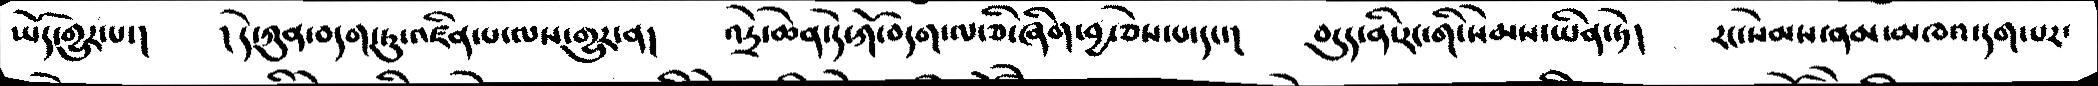ཡོད་གྱུར་པ་།    །དེ་ཀུན་བདག་ཏུ་འཛིན་པ་ལས་གྱུར་ན།    འདྲེ་ཆེན་དེ་ཀོ་བདག་ལ་ཅི་ཞིག་བྱ་ཅེས་པ་དང་།    བདུད་ནི་རང་གི་སེམས་ཡིན་ཏེ།    རང་སེམས་ནམ་མཁའ་དག་པར་
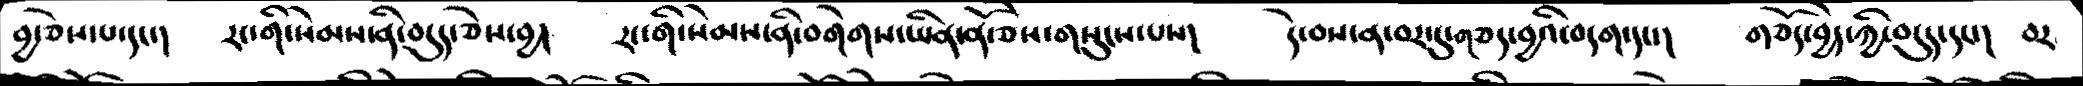བྱ་ཅེས་པ་དང་།    རང་གི་སེམས་ནི་བདུད་ཅེས་བྱ།    རང་གི་སེམས་ནི་བགེགས་ཡིན་ནོ་ཅེས་གསུངས་པས།    དེ་བས་ན་བར་དུ་གཅད་བྱའི་བདག་དང་།    གཅོད་བྱེད་ཀྱི་བདུད་དང་།    བར
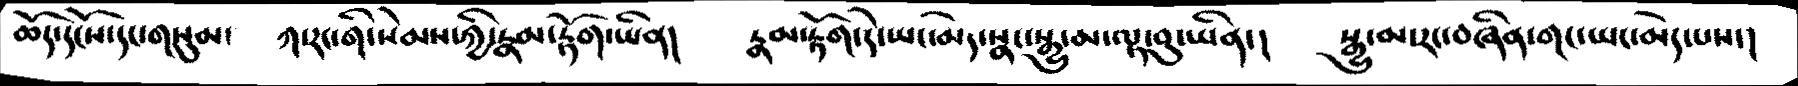ཆོད་དངོས་དང་གསུམ་   ཀ་རང་གི་སེམས་ཀྱི་རྣམ་རྟོག་ཡིན།    རྣམ་རྟོག་དེ་ཡང་མེད་སྣང་སྒྱུ་མ་ལྟ་བུ་ཡིན་།    སྒྱུ་མ་རང་བཞིན་གང་ཡང་མེད་པས་།
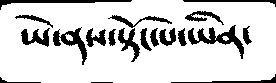ཡེ་ནས་སྟོང་པ་ཡིན་
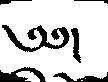༄༅།
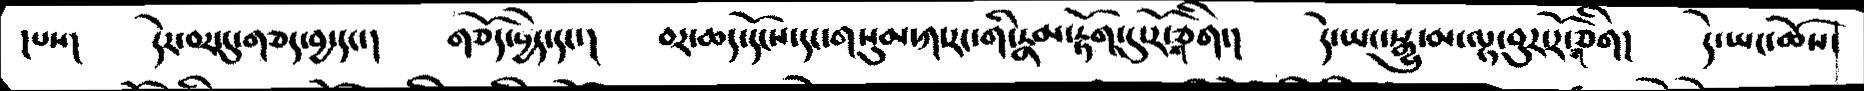།པས།     དེར་བར་དུ་གཅད་བྱ་དང་།    གཅོད་བྱེད་དང་།   བར་ཆད་དངོས་དང་གསུམ་ཀ་རང་གི་རྣམ་རྟོག་དུ་རོ་གཅིག་།   དེ་ཡང་སྒྱུ་མ་ལྷ་བུར་རོ་གཅིག།   དེ་ཡང་ཆོས་
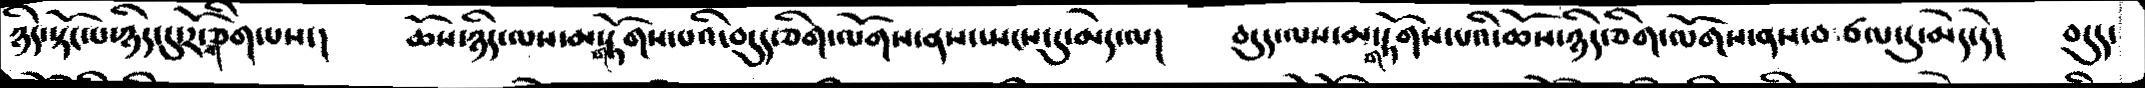ཉིད་སྟོང་པ་ཉིད་དུ་རོ་གཅིག་པས་།    ཆོས་ཉིད་ལས་མ་གཏོགས་པའི་བདུད་ཅིག་ལོགས་ནས་སྤངས་དུ་མེད་ལ།   བདུད་ལས་མ་གཏོགས་པའི་ཆོས་ཉིད་ཅིག་ལོགས་ནས་བཙལ་དུ་མེད་དེ།   བདུད་
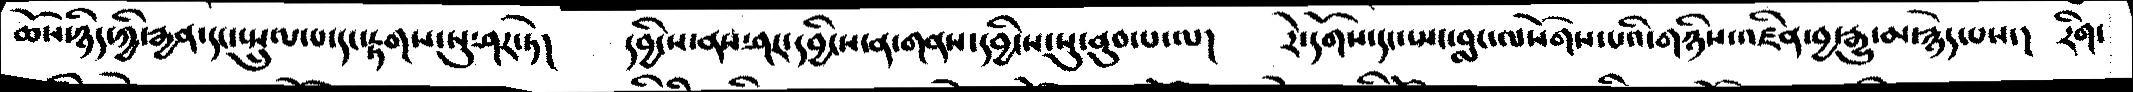ཆོས་ཉིད་ཀྱི་རྒྱན་དང་སྤྲུལ་པ་དང་རྟགས་སུ་ཤར་ཏེ།    དབྱིངས་ནས་ཤར་དབྱིངས་ན་གནས་དབྱིངས་སུ་ནུབ་པ་ལ།  རེ་དོགས་དང་སྤང་བླང་ལསོགས་པའི་གཉིས་འཛིན་བྱ་རྒྱུ་མ་རྙེད་པས་།  རིག་
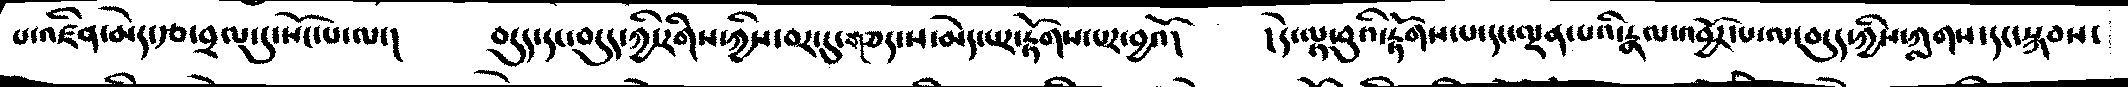པ་འཛིན་མེད་རྩ་བྲལ་དུ་སོང་པ་ལ་།   བདུད་དང་བདུད་ཀྱི་རིགས་ཀྱིས་བར་དུ་གཅད་པ་མེད་པར་རྟོགས་པར་བྱའོ།    །དེ་ལྟ་བུའི་རྟོགས་པ་དང་ལྡན་པའི་རྣལ་འབྱོར་པ་ལ་བདུད་ཀྱིས་ཀླགས་དང་སྐབས་
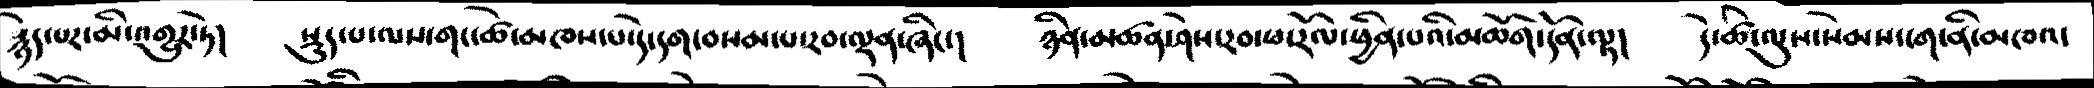རྙེད་པར་མི་འགྱུར་ཏེ།   སྡུད་པ་ལས་གང་ཚེ་མཁས་པ་དེ་དག་བསམ་པ་རབ་ལྡན་ཞིང་།   ཉིན་མཚན་ཤེས་རབ་ཕ་རོལ་ཕྱིན་པའི་མཆོག་དོན་ལྟ།  དེ་ཚེ་ལུས་སེམས་ངག་ནི་མཁའ་
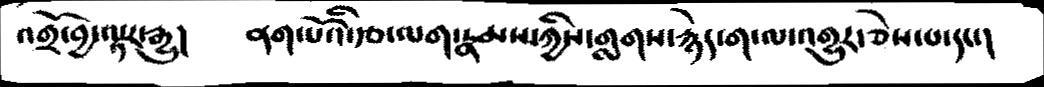འགྲོ་བྱ་ལྟར་རྒྱུ།    ནག་པོའི་རྩ་ལག་རྣམས་ཀྱིས་གླགས་རྙེད་ག་ལ་འགྱུར་ཅེས་པ་དང་།
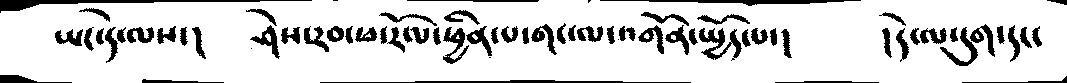ཡང་དེ་ལས་།    ཤེས་རབ་ཕ་རོལ་ཕྱིན་པ་གང་ལ་འགོན་སྤྱོད་པ་།        །དེ་ལ་དུག་དང་
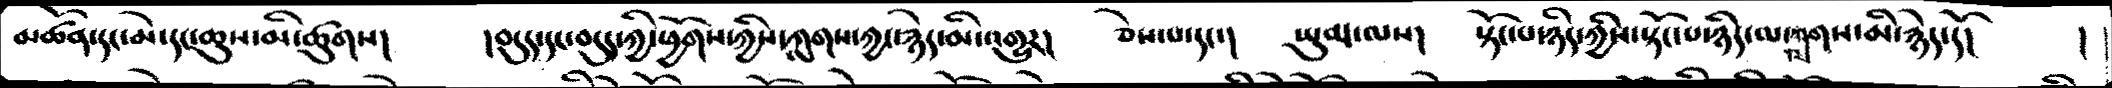མཚོན་དང་མེ་དང་ཆུས་མི་ཚུགས།    །བདུད་དང་བདུད་ཀྱི་ཕྱོགས་ཀྱིས་ཀླགས་རྐྱང་རྙེད་མི་འགྱུར་།    ཅེས་པ་དང་།   ཡུམ་ལས།    སྟོང་པ་ཉིད་ཀྱིས་སྟོང་པ་ཉིད་ལ་ཀླགས་མི་རྙེད་དོ།      །
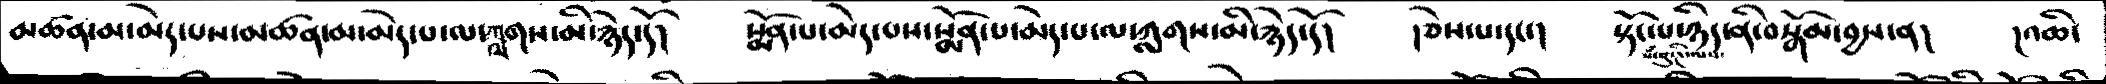མཚན་མ་མེད་པས་མཚན་མ་མེད་པ་ལ་ཀླགས་མི་རྙེད་དོ།     སྨོན་པ་མེད་པས་སྨོན་པ་མེད་པ་ལ་ཀླགས་མི་རྙེད་དོ།     །ཅེས་པ་དང་།     སྟོང་པ་ཉིད་ནི་བསྒོམ་བྱས་ན།    །འཆི་
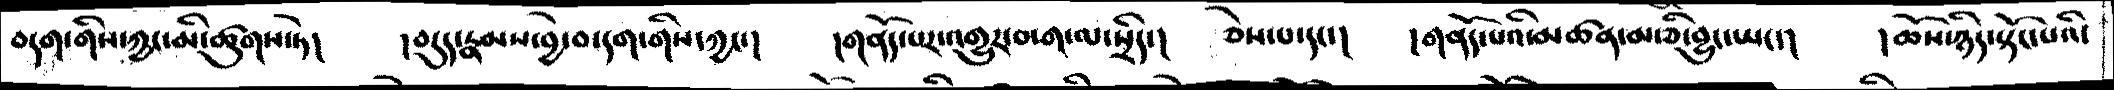བདག་གིས་ཀྱང་མི་ཚུགས་ཏེ།    །བདུད་རྣམས་བྱེ་བ་དག་གིས་ཀྱང་།    །གནོད་པར་འགྱུར་བ་ག་ལ་སྲིད་།   ཅེས་པ་དང་།     །གནོད་པའི་མཚན་མ་ཅི་བྱུང་ཡང་།    །ཆོས་ཉིད་སྟོང་པའི་
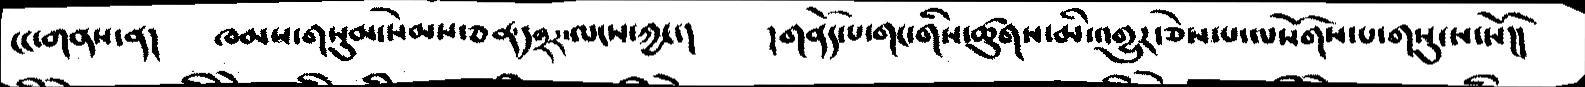ངང་གནས་ན།     ཁམས་གསུམ་སེམས་ཅན་དགྲར་ལངས་ཀྱང་།     །གནོད་པ་གང་གིས་ཚུགས་མི་འགྱུར་ཅེས་པ་ལསོགས་པ་གསུངས་སོ།།
